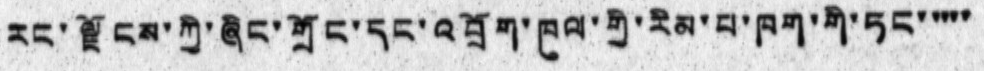རང་ལྗོངས་ཀྱི་ཞིང་གྲོང་དང་འབྲོག་ཁུལ་གྱི་རིམ་པ་ཁག་གི་ཏང་་་་་
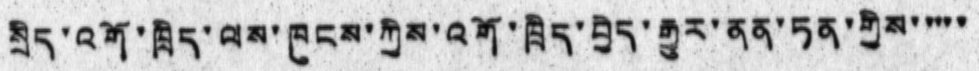སྲིད་འགོ་ཁྲིད་ལས་ཁུངས་ཀྱིས་འགོ་ཁྲིད་བྱེད་རྒྱུར་ནན་ཏན་གྱིས་་་་་
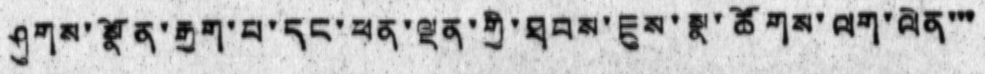ཤུགས་སྣོན་རྒྱག་པ་དང་ཕན་ལྡན་གྱི་ཐབས་ཇུས་སྣ་ཚོགས་ལག་ལེན་་་
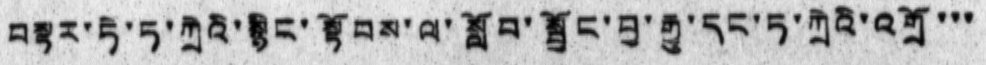བསྟར་ཏེ་ཏ་ཀྲེའི་སྙིང་སྟོབས་ལ་སློབ་སྦྱོང་བྱ་རྒྱུ་དང་ཏ་ཀྲེའི་འགྲོ་་་
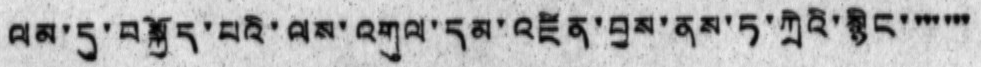ལམ་དུ་བསྐྱོད་པའི་ལས་འགུལ་དམ་འཛིན་བྱས་ནས་ཏ་ཀྲེའི་རྙིང་ ་་་་་་
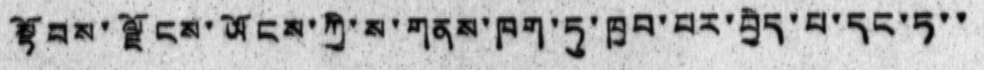སྟོབས་ལྗོངས་ཡོངས་ཀྱི་ས་གནས་ཁག་ཏུ་ཁྱབ་པར་བྱེད་པ་དང་ཏ་་
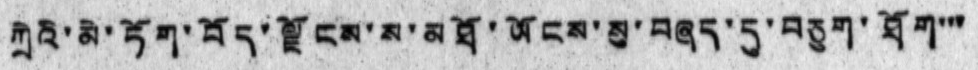ཀྲེའི་མེ་ཏོག་བོད་ལྗོངས་ས་མཐོ་ཡོངས་སུ་བཞད་དུ་བཅུག་ཐོག་་་
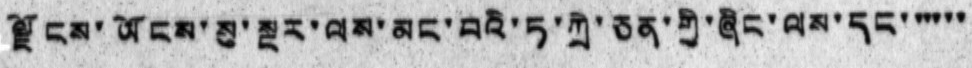ལྗོངས་ཡོངས་སུ་སྔར་ལམ་མང་བའི་ཏ་ཀྲེ་ཅན་གྱི་ཞིང་ལས་དང་་་་་་
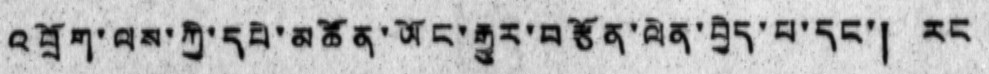འབྲོག་ལས་ཀྱི་དཔེ་མཚོན་ཡོང་རྒྱུར་བརྩོན་ལེན་བྱེད་པ་དང་། རང
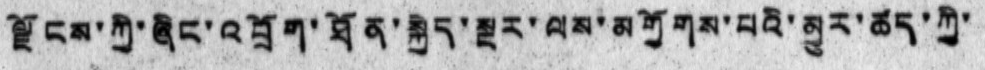ལྗོངས་ཀྱི་ཞིང་འབྲོག་ཐོན་སྐྱེད་སྔར་ལས་མགྱོགས་པའི་མྱུར་ཚད་ཀྱི་
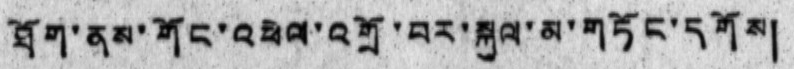ཐོག་ནས་གོང་འཕེལ་འགྲོ་བར་སྐུལ་མ་གཏོང་དགོས།
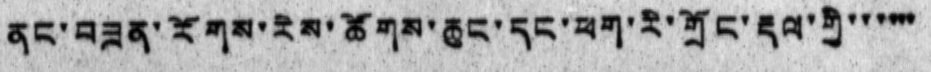ནང་བཟན་རོགས་རེས་ཚོགས་ཆུང་དང་ཕག་རི་གྲོང་རྡལ་གྱི་་་་་་
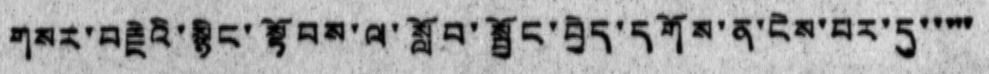གསར་བརྗེའི་སྙིང་སྟོབས་ལ་སློབ་སྦྱོང་བྱེད་དགོས་ན་ངེས་པར་དུ་་་་་
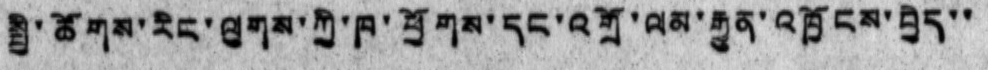སྤྱི་ཚོགས་རིང་ལུགས་ཀྱི་ཁ་ཕྱོགས་དང་འགྲོ་ལམ་རྒྱུན་འཁྱོངས་བྱེད་་
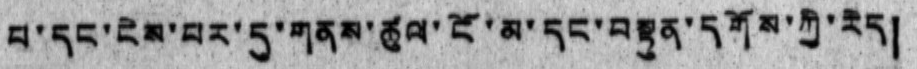པ་དང་ངེས་པར་དུ་གནས་ཚུལ་ངོ་མ་དང་བསྟུན་དགོས་ཀྱི་རེད།
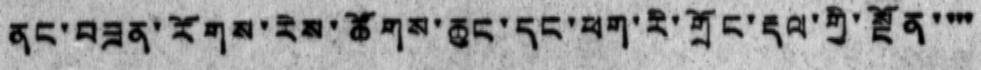ནང་བཟན་རོགས་རེས་ཚོགས་ཆུང་དང་ཕག་རི་གྲོང་རྡལ་གྱི་སྔོན་་་་
